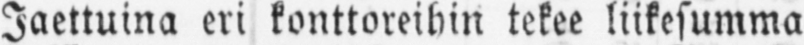Jaettuina eri konttoreihin tekee liikesumma
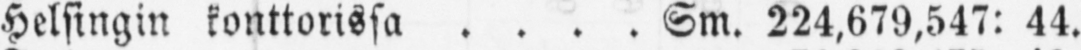Helsingin konttorissa Sm. 224,679,547: 44.
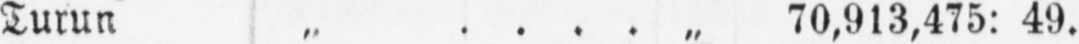Turun „ „ 70,913,475: 49.
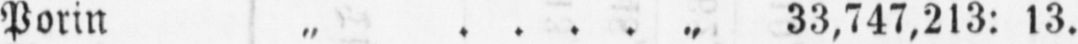Porin „ „ 33,747,213: 13.
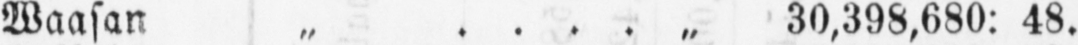Waasan „ „ 30,398,680: 48.
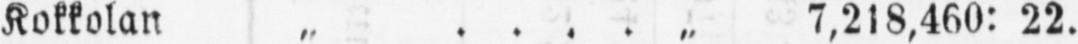Kokkolan „ „ 7,218,460: 22.
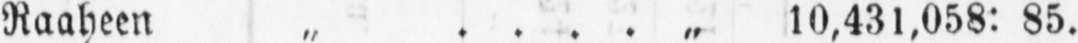Raaheen „ „ 10,431,058: 85.
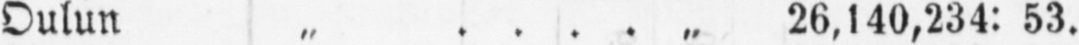Oulun „ „ 26,140,234: 53.
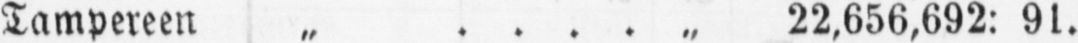Tampereen „ „ 22,656,692: 91.
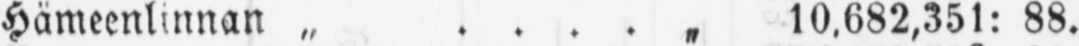Hämeenlinnan „ „ 10,682,351: 88.
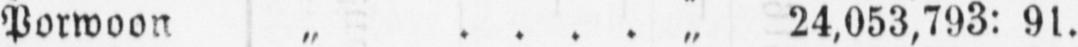Porwoon „ „ 24,053,793: 91.
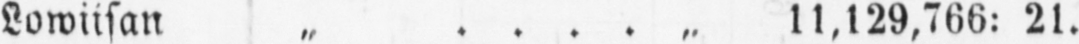Lowiisan „ „ 11,129,766: 21.
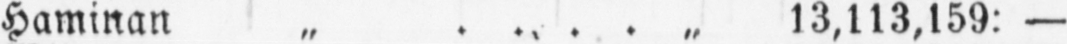Haminan „ „ 13,113,159: —
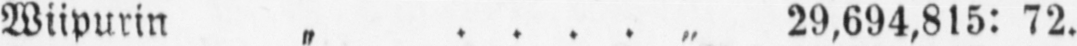Wiipurin „ „ 29,694,815: 72.
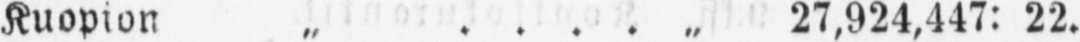Kuopion „ „ 27,924,447: 22.
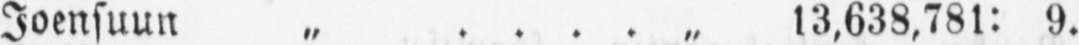Joensuun „ „ 13,638,781: 9.
